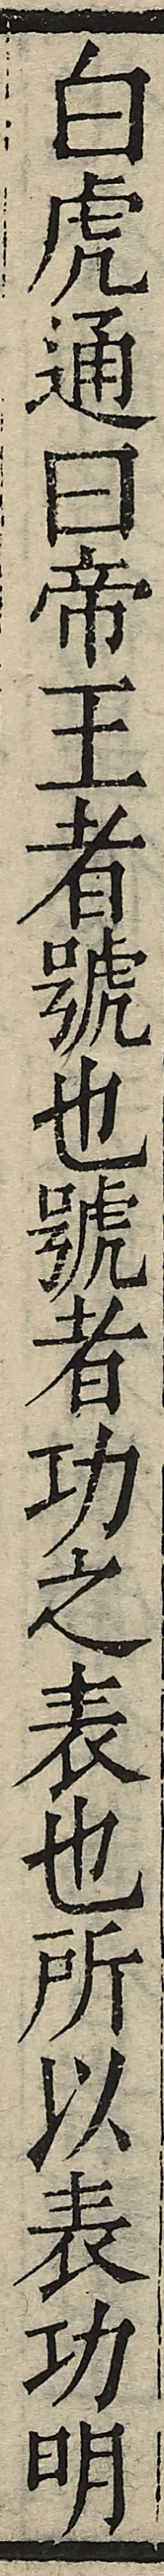白虎通曰帝王者號也號者功之表也所以表功明
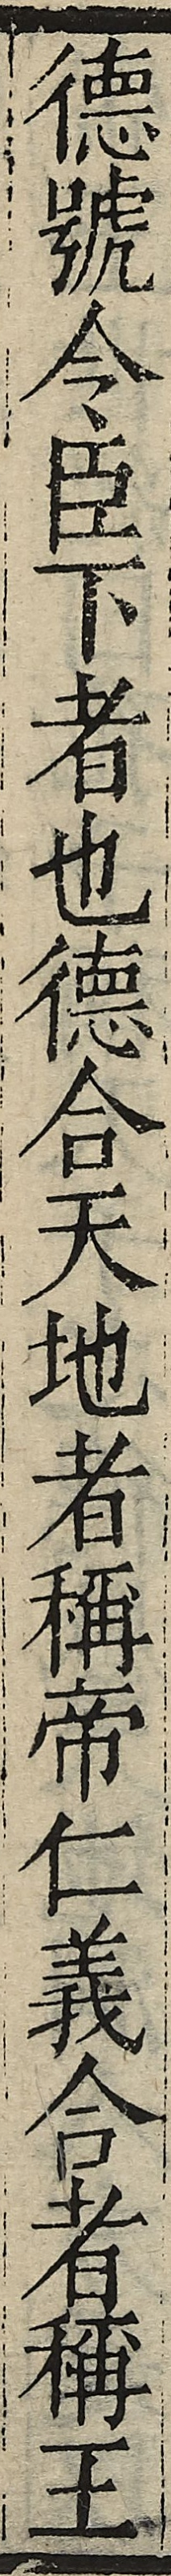德號令臣下者也德合天地者稱帝仁義合者稱王
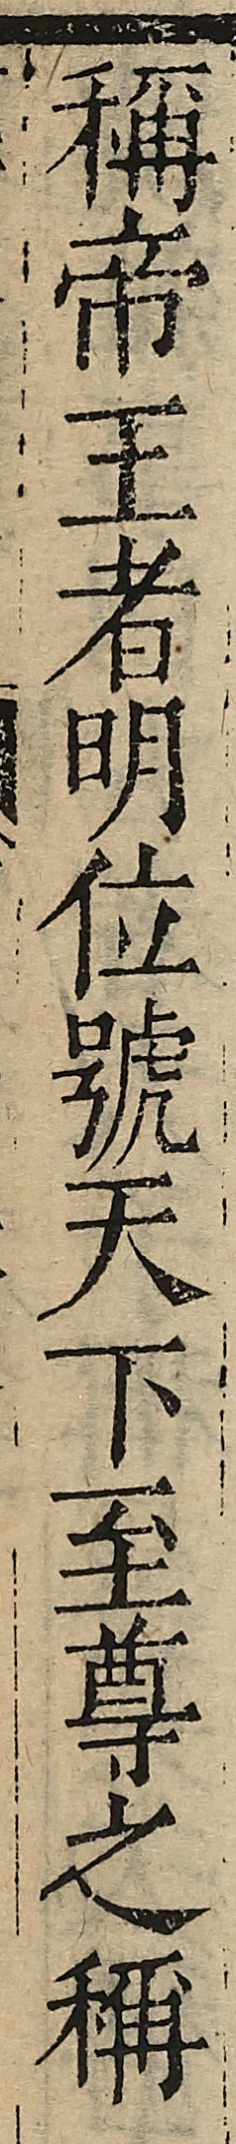稱帝王者明位號天下至尊之稱
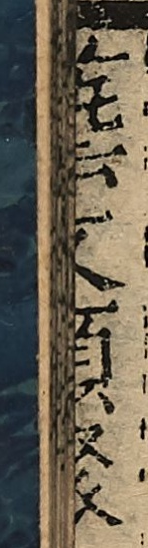藝文類聚
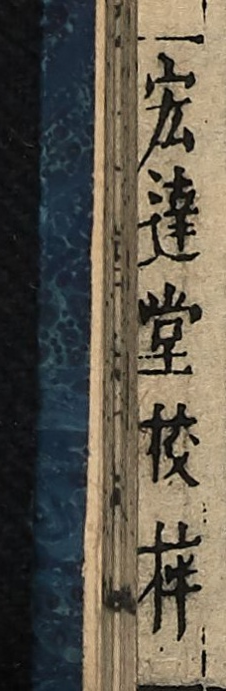宏達堂校梓
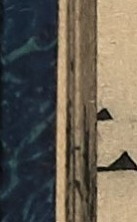二
